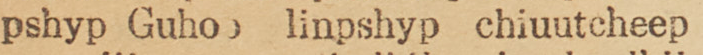pshyp Guhoo linpshyp chiuutcheep
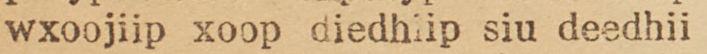wxoojiip xoop diedhiip siu deedhii
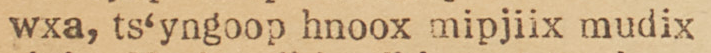wxa, ts'yngoop hnoox mipjiix mudix
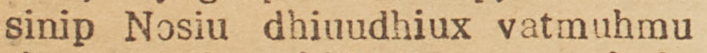sinip Nosiu dhiuudhiux vatmuhmu
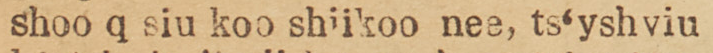shoo q siu koo shiikoo nee, ts'yshviu
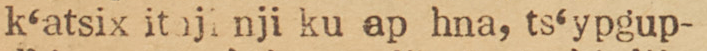k'atsix itoji nji ku ap hna, ts'ypgup-
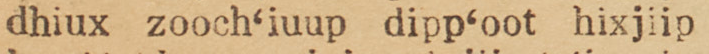dhiux zooch'iuup dipp'oot hixjiip
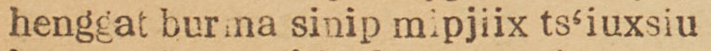henggat burma sinip mipjiix ts'iuxsiu
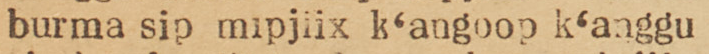burma sip mipjiix k'angoop k'anggu
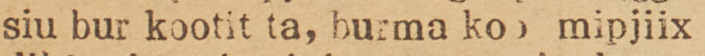siu bur kootit ta, burma koo mipjiix
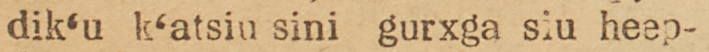dik'u k'atsiu sini gurxga siu heep-
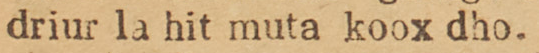driur la hit muta koox dho.
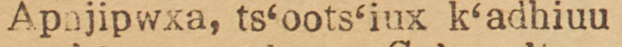Apojipwxa, ts'oots'iux k'adhiuu
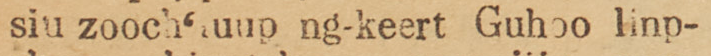aiu zooch'iuup ng-keert Guhoo linp-
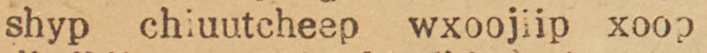shyp chiuutcheep wxoojiip xoop
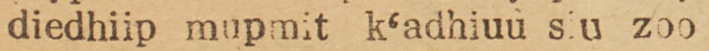diedhiip mupmit k'adhiuu siu zoo
